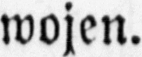wojen.
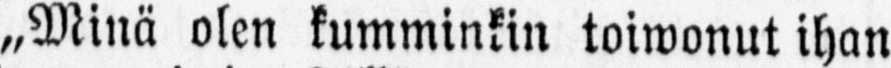„Minä olen kumminkin toiwonut ihan
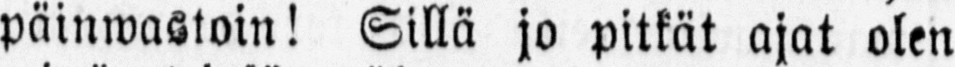päinwastoin! Sillä jo pitkät ajat olen
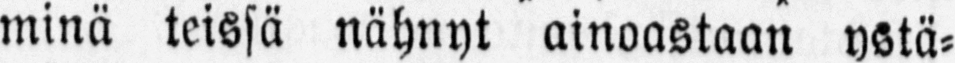minä teissä nähnyt ainoastaan ystä-
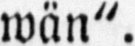wän".
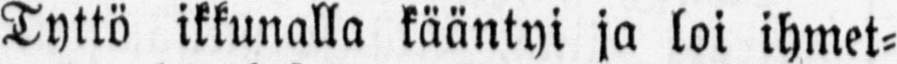Tyttö ikkunalla kääntyi ja loi ihmet-
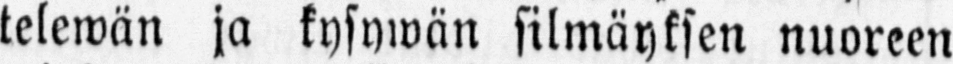telewän ja kysywän silmäyksen nuoreen
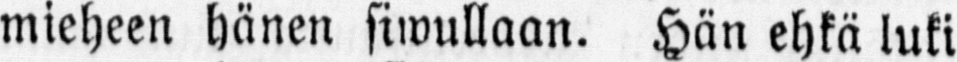mieheen hänen siwullaan. Hän ehkä luki
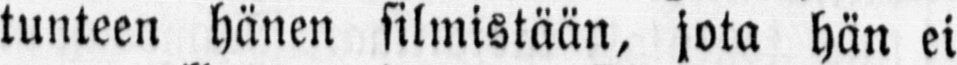tunteen hänen silmistään, jota hän ei
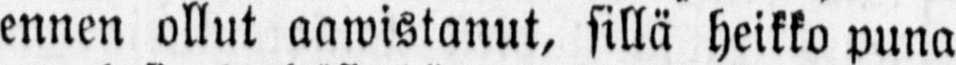ennen ollut aawistanut, sillä heikko puna
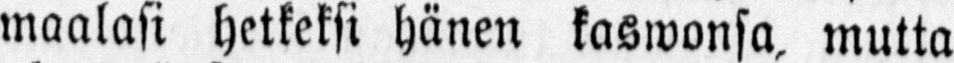maalasi hetkeksi hänen kaswonsa, mutta
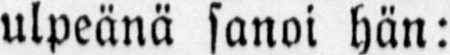ulpeänä sanoi hän:
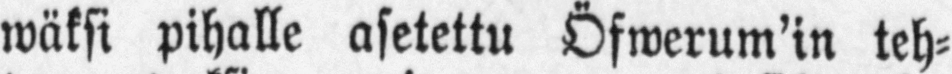waksi pihalle asetettu Öfwerum'in teh-
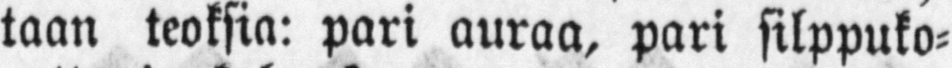taan teoksia: pari auraa, pari silppuko-
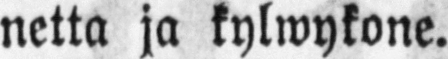netta ja kylwykone.
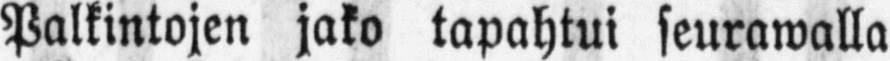Palkintojen jako tapahtui seurawalla
